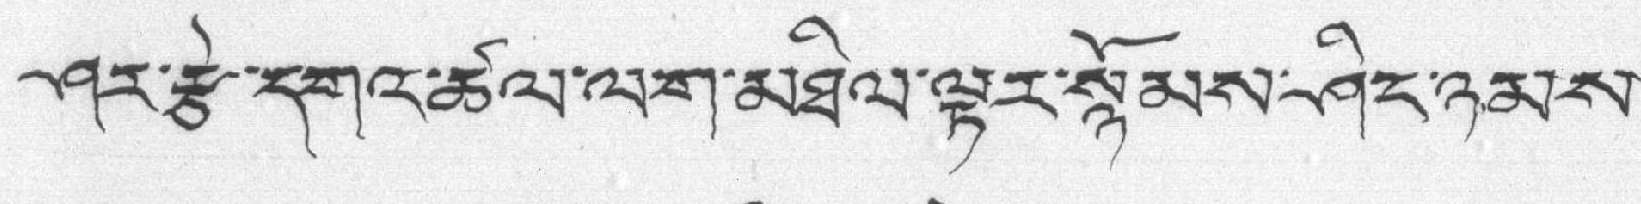ཤར་རྩེ་དགའ་ཚལ་ལག་མཐིལ་ལྟར་སྙོམས་ཤིང་ཉམས་
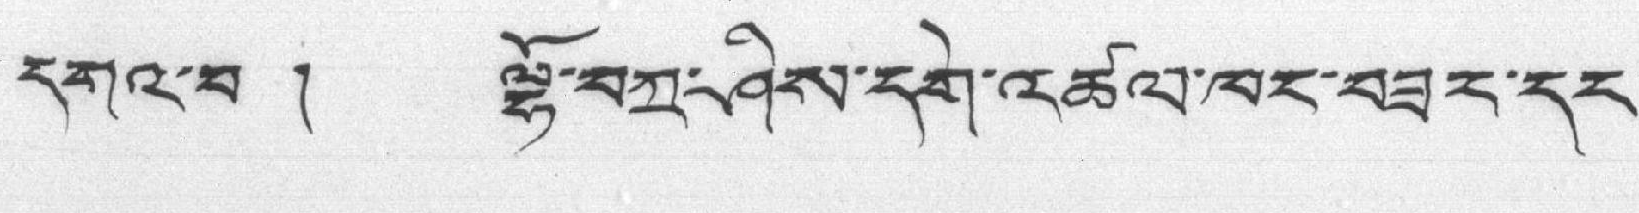དགའ་བ ། ལྷོ་བཀྲ་ཤིས་དགེ་འཚལ་ཁང་བཟང་དང་
